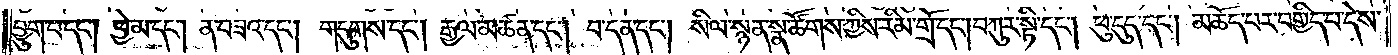བྱུག་པ་དང༌། ཕྱེ་མ་དང༌། ན་བཟའ་དང༌། གདུགས་དང༌། རྒྱལ་མཚན་དང༌། བ་དན་དང༌། སིལ་སྙན་སྣ་ཚོགས་ཀྱིས་རིམ་གྲོ་དང༌། བཀུར་སྟི་དང༌། ཕུ་དུད་དང༌། མཆོད་པར་བགྱིད་པ་དེས་
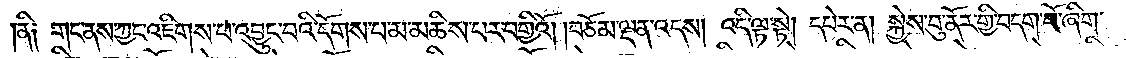ནི༑ གང་ནས་ཀྱང་འཇིགས་པ་འབྱུང་བའི་དོགས་པ་མ་མཆིས་པར་བགྱིའོ། །བཅོམ་ལྡན་འདས། འདི་ལྟ་སྟེ། དཔེར་ན། སྐྱེས་བུ་ནོར་གྱི་བདག་པོ་ཞིག་
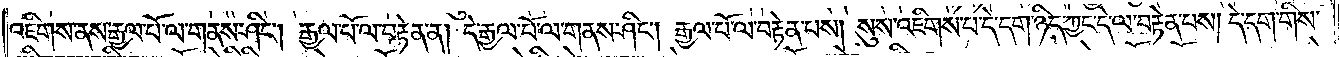འཇིགས་ནས་རྒྱལ་པོ་ལ་གནས་ཤིང༌། རྒྱལ་པོ་ལ་བརྟེན་ན། དེ་རྒྱལ་པོ་ལ་གནས་ཤིང༌། རྒྱལ་པོ་ལ་བརྟེན་པས། སུས་འཇིགས་པ་དེ་དག་ཉིད་ཀྱང་དེ་ལ་བརྟེན་པས། དེ་དག་གིས་
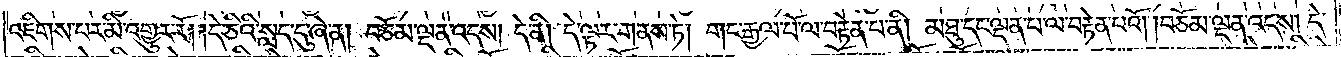འཇིགས་པར་མི་འགྱུར་རོ། །དེ་ཅིའི་སླད་དུ་ཞེ་ན། བཅོམ་ལྡན་འདས། དེ་ནི། དེ་ལྟར་གནས་ཏེ། གང་རྒྱལ་པོ་ལ་བརྟེན་པ་ནི། མཐུ་དང་ལྡན་པ་ལ་བརྟེན་པའོ། །བཅོམ་ལྡན་འདས། དེ་
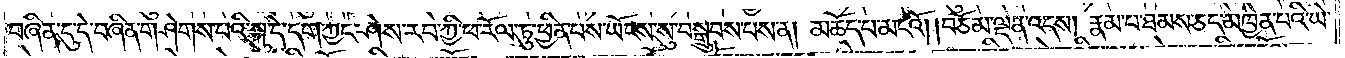བཞིན་དུ་དེ་བཞིན་གཤེགས་པའི་སྐུ་དེ་དག་ཀྱང་ཤེས་རབ་ཀྱི་ཕ་རོལ་ཏུ་ཕྱིན་པས་ཡོངས་སུ་བསྒྲུབས་པས་ན། མཆོད་པ་མངའོ། །བཅོམ་ལྡན་འདས། རྣམ་པ་ཐམས་ཅད་མཁྱེན་པའི་ཡེ་
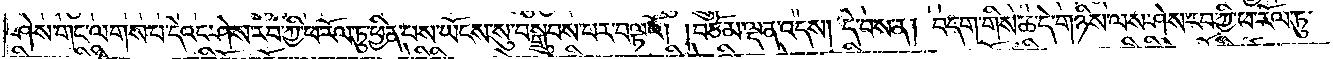ཤེས་གང་ལགས་པ་དེའང་ཤེས་རབ་ཀྱི་ཕ་རོལ་ཏུ་ཕྱིན་པས་ཡོངས་སུ་བསྒྲུབས་པར་བལྟའོ། །བཅོམ་ལྡན་འདས། དེ་བས་ན། བདག་གིས་ཆ་དེ་གཉིས་ལས་ཤེས་རབ་ཀྱི་ཕ་རོལ་ཏུ་
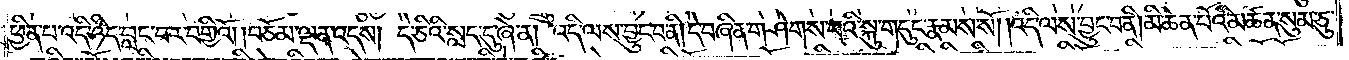ཕྱིན་པ་འདི་ཉིད་བླང་བར་བགྱིའོ། །བཅོམ་ལྡན་འདས། དེ་ཅིའི་སླད་དུ་ཞེ་ན། འདི་ལས་བྱུང་བ་ནི། དེ་བཞིན་གཤེགས་པའི་སྐུ་གདུང་རྣམས་སོ། །འདི་ལས་བྱུང་བ་ནི། མི་ཆེན་པོའི་མཚན་སུམ་ཅུ་
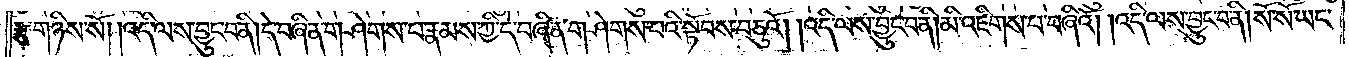རྩ་གཉིས་སོ། །འདི་ལས་བྱུང་བ་ནི། དེ་བཞིན་གཤེགས་པ་རྣམས་ཀྱི་དེ་བཞིན་གཤེགས་པའི་སྟོབས་བཅུའོ། །འདི་ལས་བྱུང་བ་ནི། མི་འཇིགས་པ་བཞིའོ། །འདི་ལས་བྱུང་བ་ནི། སོ་སོ་ཡང་
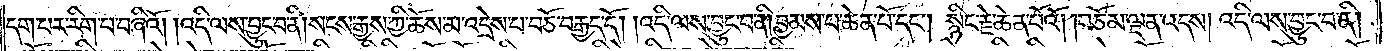དག་པར་རིག་པ་བཞིའོ། །འདི་ལས་བྱུང་བ་ནི། སངས་རྒྱས་ཀྱི་ཆོས་མ་འདྲེས་པ་བཅོ་བརྒྱད་དོ། །འདི་ལས་བྱུང་བ་ནི། བྱམས་པ་ཆེན་པོ་དང༌། སྙིང་རྗེ་ཆེན་པོའོ། །བཅོམ་ལྡན་འདས། འདི་ལས་བྱུང་བ་ནི།
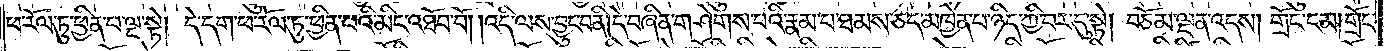ཕ་རོལ་ཏུ་ཕྱིན་པ་ལྔ་སྟེ། དེ་དག་ཕ་རོལ་ཏུ་ཕྱིན་པའི་མིང་འཐོབ་བོ། །འདི་ལས་བྱུང་བ་ནི། དེ་བཞིན་གཤེགས་པའི་རྣམ་པ་ཐམས་ཅད་མཁྱེན་པ་ཉིད་ཀྱི་བར་དུ་སྟེ། བཅོམ་ལྡན་འདས། གྲོང་ངམ། གྲོང་
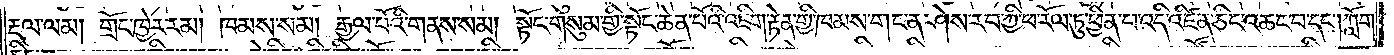རྡལ་ལམ། གྲོང་ཁྱེར་རམ། ཁམས་སམ། རྒྱལ་པོའི་གནས་སམ། སྟོང་གསུམ་གྱི་སྟོང་ཆེན་པོའི་འཇིག་རྟེན་གྱི་ཁམས་གང་ན་ཤེས་རབ་ཀྱི་ཕ་རོལ་ཏུ་ཕྱིན་པ་འདི་འཛིན་ཅིང་འཆང་བ་དང༌། ཀློག་
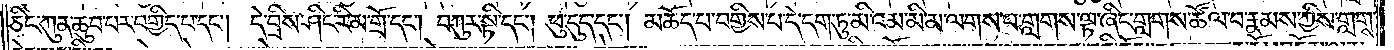ཅིང་ཀུན་ཆུབ་པར་བགྱིད་པ་དང༌། དེ་བྲིས་ཤིང་རིམ་གྲོ་དང༌། བཀུར་སྟི་དང༌། ཕུ་དུད་དང༌། མཆོད་པ་བགྱིས་པ་དེ་དག་ཏུ་མི་འམ་མི་མ་ལགས་པ་གླགས་ལྟ་ཞིང་གླགས་ཚོལ་བ་རྣམས་ཀྱིས་གླགས་
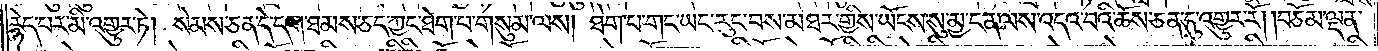རྙེད་པར་མི་འགྱུར་ཏེ། སེམས་ཅན་དེ་དག་ཐམས་ཅད་ཀྱང་ཐེག་པ་གསུམ་ལས། ཐེག་པ་གང་ཡང་རུང་བས་མཐར་གྱིས་ཡོངས་སུ་མྱ་ངན་ལས་འདའ་བའི་ཆོས་ཅན་དུ་འགྱུར་རོ། །བཅོམ་ལྡན་
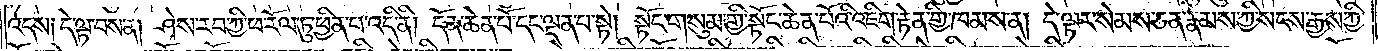འདས༑ དེ་ལྟ་བས་ན། ཤེས་རབ་ཀྱི་ཕ་རོལ་ཏུ་ཕྱིན་པ་འདི་ནི། དོན་ཆེན་པོ་དང་ལྡན་པ་སྟེ། སྟོང་གསུམ་གྱི་སྟོང་ཆེན་པོའི་འཇིག་རྟེན་གྱི་ཁམས་ན། དེ་ལྟར་སེམས་ཅན་རྣམས་ཀྱི་སངས་རྒྱས་ཀྱི་
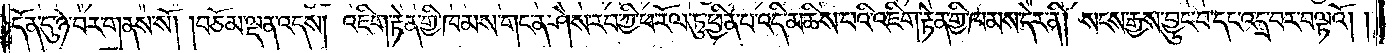དོན་དུ་ཉེ་བར་གནས་སོ། །བཅོམ་ལྡན་འདས། འཇིག་རྟེན་གྱི་ཁམས་གང་ན་ཤེས་རབ་ཀྱི་ཕ་རོལ་ཏུ་ཕྱིན་པ་འདི་མཆིས་པའི་འཇིག་རྟེན་གྱི་ཁམས་དེར་ནི། སངས་རྒྱས་བྱུང་བ་དང་འདྲ་བར་བལྟའོ། །
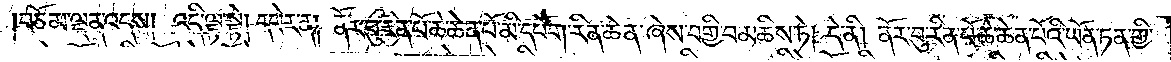བཅོམ་ལྡན་འདས། འདི་ལྟ་སྟེ། དཔེར་ན། ནོར་བུ་རིན་པོ་ཆེ་ཆེན་པོ་མི་དཔོག་རིན་ཆེན་ཞེས་བགྱི་བ་མཆིས་ཏེ། དེ་ནི། ནོར་བུ་རིན་པོ་ཆེ་ཆེན་པོའི་ཡོན་ཏན་གྱི་
